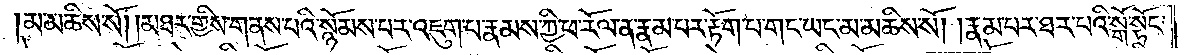མ་མཆིས་སོ། །མཐར་གྱིས་གནས་པའི་སྙོམས་པར་འཇུག་པ་རྣམས་ཀྱི་ཕ་རོལ་ན་རྣམ་པར་རྟོག་པ་གང་ཡང་མ་མཆིས་སོ། །རྣམ་པར་ཐར་པའི་སྒོ་སྟོང་
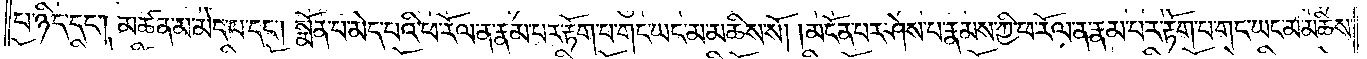པ་ཉིད་དང༌། མཚན་མ་མེད་པ་དང༌། སྨོན་པ་མེད་པའི་ཕ་རོལ་ན་རྣམ་པར་རྟོག་པ་གང་ཡང་མ་མཆིས་སོ། །མངོན་པར་ཤེས་པ་རྣམས་ཀྱི་ཕ་རོལ་ན་རྣམ་པར་རྟོག་པ་གང་ཡང་མ་མཆིས་
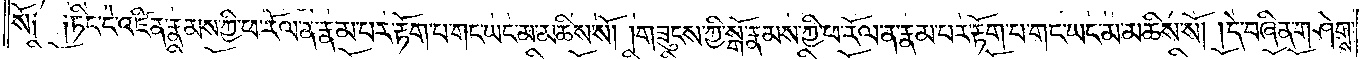སོ༑ ༑ཏིང་ངེ་འཛིན་རྣམས་ཀྱི་ཕ་རོལ་ན་རྣམ་པར་རྟོག་པ་གང་ཡང་མ་མཆིས་སོ། །གཟུངས་ཀྱི་སྒོ་རྣམས་ཀྱི་ཕ་རོལ་ན་རྣམ་པར་རྟོག་པ་གང་ཡང་མ་མཆིས་སོ། །དེ་བཞིན་གཤེགས་
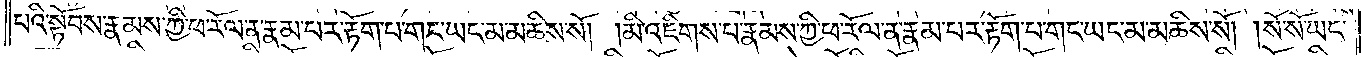པའི་སྟོབས་རྣམས་ཀྱི་ཕ་རོལ་ན་རྣམ་པར་རྟོག་པ་གང་ཡང་མ་མཆིས་སོ། །མི་འཇིགས་པ་རྣམས་ཀྱི་ཕ་རོལ་ན་རྣམ་པར་རྟོག་པ་གང་ཡང་མ་མཆིས་སོ། །སོ་སོ་ཡང་
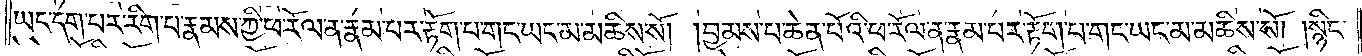ཡང་དག་པར་རིག་པ་རྣམས་ཀྱི་ཕ་རོལ་ན་རྣམ་པར་རྟོག་པ་གང་ཡང་མ་མཆིས་སོ། །བྱམས་པ་ཆེན་པོའི་ཕ་རོལ་ན་རྣམ་པར་རྟོག་པ་གང་ཡང་མ་མཆིས་སོ། །སྙིང་
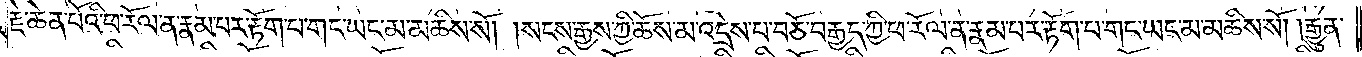རྗེ་ཆེན་པོའི་ཕ་རོལ་ན་རྣམ་པར་རྟོག་པ་གང་ཡང་མ་མཆིས་སོ། །སངས་རྒྱས་ཀྱི་ཆོས་མ་འདྲེས་པ་བཅོ་བརྒྱད་ཀྱི་ཕ་རོལ་ན་རྣམ་པར་རྟོག་པ་གང་ཡང་མ་མཆིས་སོ། །རྒྱུན་
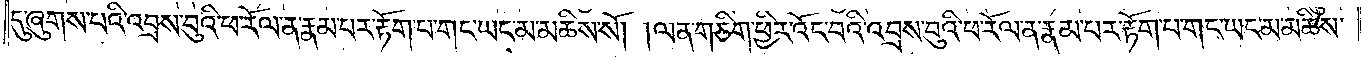དུ་ཞུགས་པའི་འབྲས་བུའི་ཕ་རོལ་ན་རྣམ་པར་རྟོག་པ་གང་ཡང་མ་མཆིས་སོ། །ལན་གཅིག་ཕྱིར་འོང་བའི་འབྲས་བུའི་ཕ་རོལ་ན་རྣམ་པར་རྟོག་པ་གང་ཡང་མ་མཆིས་
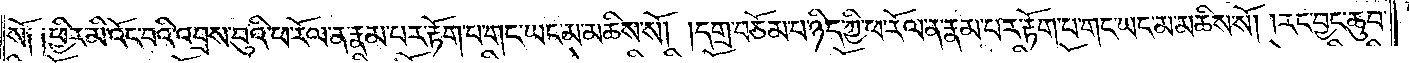སོ༑ ༑ཕྱིར་མི་འོང་བའི་འབྲས་བུའི་ཕ་རོལ་ན་རྣམ་པར་རྟོག་པ་གང་ཡང་མ་མཆིས་སོ། །དགྲ་བཅོམ་པ་ཉིད་ཀྱི་ཕ་རོལ་ན་རྣམ་པར་རྟོག་པ་གང་ཡང་མ་མཆིས་སོ། །རང་བྱང་ཆུབ་
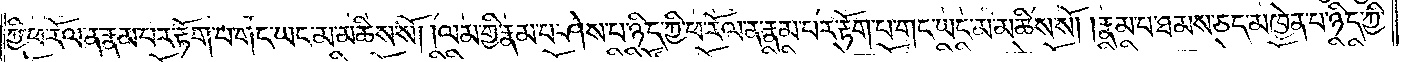ཀྱི་ཕ་རོལ་ན་རྣམ་པར་རྟོག་པ་གང་ཡང་མ་མཆིས་སོ། །ལམ་གྱི་རྣམ་པ་ཤེས་པ་ཉིད་ཀྱི་ཕ་རོལ་ན་རྣམ་པར་རྟོག་པ་གང་ཡང་མ་མཆིས་སོ། །རྣམ་པ་ཐམས་ཅད་མཁྱེན་པ་ཉིད་ཀྱི་
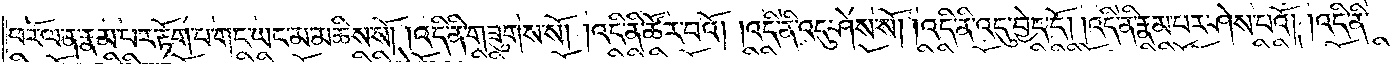ཕ་རོལ་ན་རྣམ་པར་རྟོག་པ་གང་ཡང་མ་མཆིས་སོ། །འདི་ནི་གཟུགས་སོ། །འདི་ནི་ཚོར་བའོ། །འདི་ནི་འདུ་ཤེས་སོ། །འདི་ནི་འདུ་བྱེད་དོ། །འདི་ནི་རྣམ་པར་ཤེས་པའོ། །འདི་ནི་
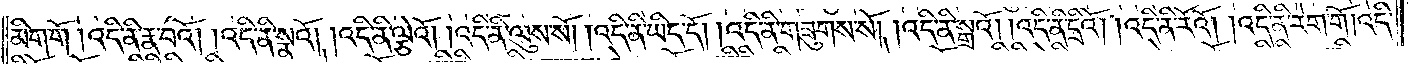མིག་གོ །འདི་ནི་རྣ་བའོ། །འདི་ནི་སྣའོ། །འདི་ནི་ལྕེའོ། །འདི་ནི་ལུས་སོ། །འདི་ནི་ཡིད་དོ། །འདི་ནི་གཟུགས་སོ། །འདི་ནི་སྒྲའོ། །འདི་ནི་དྲིའོ། །འདི་ནི་རོའོ། །འདི་ནི་རེག་གོ །འདི་
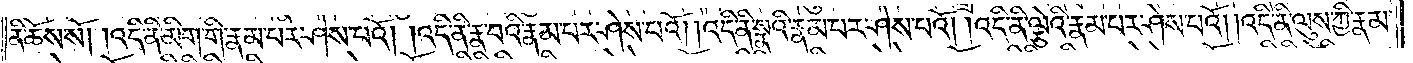ནི་ཆོས་སོ། །འདི་ནི་མིག་གི་རྣམ་པར་ཤེས་པའོ། །འདི་ནི་རྣ་བའི་རྣམ་པར་ཤེས་པའོ། །འདི་ནི་སྣའི་རྣམ་པར་ཤེས་པའོ།  །འདི་ནི་ལྕེའི་རྣམ་པར་ཤེས་པའོ། །འདི་ནི་ལུས་ཀྱི་རྣམ་
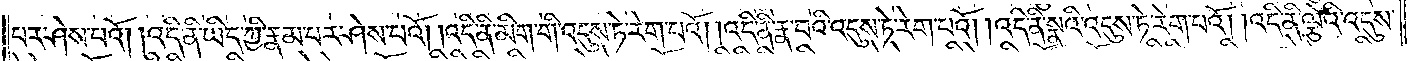པར་ཤེས་པའོ། །འདི་ནི་ཡིད་ཀྱི་རྣམ་པར་ཤེས་པའོ༎ འདི་ནི་མིག་གི་འདུས་ཏེ་རེག་པའོ། །འདི་ནི་རྣ་བའི་འདུས་ཏེ་རེག་པའོ། །འདི་ནི་སྣའི་འདུས་ཏེ་རེག་པའོ། །འདི་ནི་ལྕེའི་འདུས་
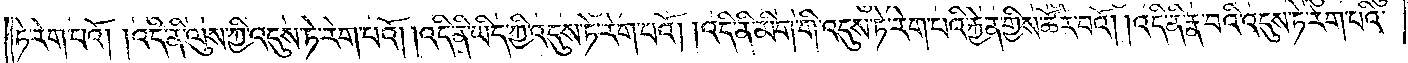ཏེ་རེག་པའོ། །འདི་ནི་ལུས་ཀྱི་འདུས་ཏེ་རེག་པའོ། །འདི་ནི་ཡིད་ཀྱི་འདུས་ཏེ་རེག་པའོ། །འདི་ནི་མིག་གི་འདུས་ཏེ་རེག་པའི་རྐྱེན་གྱིས་ཚོར་བའོ། །འདི་ནི་རྣ་བའི་འདུས་ཏེ་རེག་པའི་
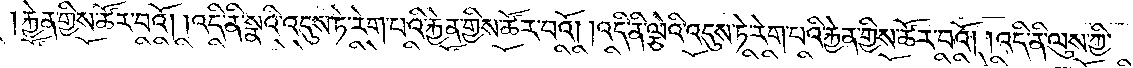རྐྱེན་གྱིས་ཚོར་བའོ། །འདི་ནི་སྣའི་འདུས་ཏེ་རེག་པའི་རྐྱེན་གྱིས་ཚོར་བའོ། །འདི་ནི་ལྕེའི་འདུས་ཏེ་རེག་པའི་རྐྱེན་གྱིས་ཚོར་བའོ། །འདི་ནི་ལུས་ཀྱི་
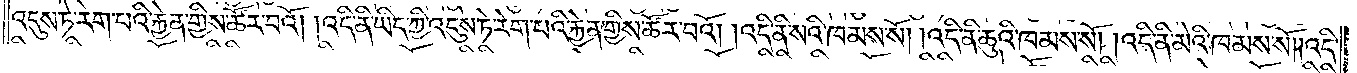འདུས་ཏེ་རེག་པའི་རྐྱེན་གྱིས་ཚོར་བའོ། །འདི་ནི་ཡིད་ཀྱི་འདུས་ཏེ་རེག་པའི་རྐྱེན་གྱིས་ཚོར་བའོ། །འདི་ནི་སའི་ཁམས་སོ། །འདི་ནི་ཆུའི་ཁམས་སོ། །འདི་ནི་མེའི་ཁམས་སོ། །འདི་
